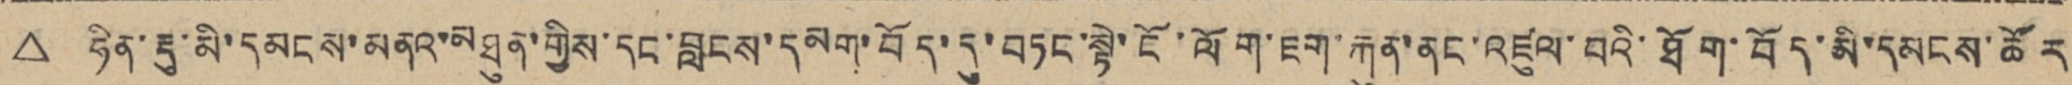△ ཧིན་རྡུ་མི་དམངས་མནའ་མཐུན་གྱིས་དང་བླངས་དམག་བོད་དུ་བཏང་སྟེ་ངོག་ལོག་ཇག་རྐུན་ནང་འཛུལ་པའི་ཐོག་བོད་མི་དམངས་ཚོར
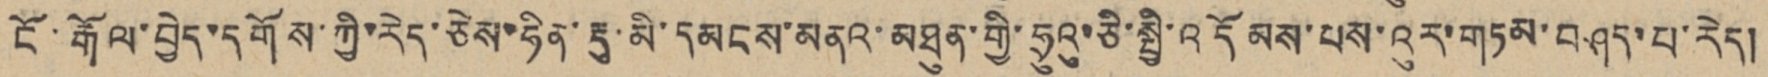ངོ་རྒོལ་བྱེད་དགོས་ཀྱི་རེད་ཅེས་ཧིན་རྡུ་མི་དམངས་མནའ་མཐུན་གྱི་ཧྲུའུ་ཅི་སྤྱི་འདོམས་པས་འུར་གཏམ་བཤད་པ་རེད།
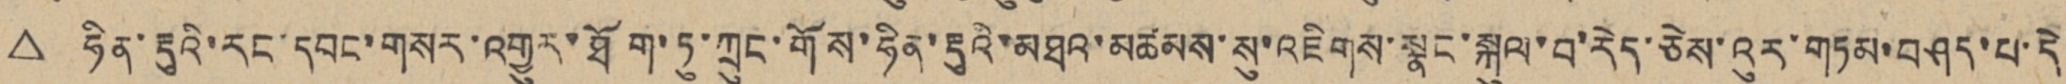△ ཧིན་རྡུའི་རང་དབང་གསར་འགྱུར་ཐོག་ཏུ་ཀྲུང་གོས་ཧིན་རྡུའི་མཐའ་མཚམས་སུ་འཇིགས་སྣང་སྐུལ་བ་རེད་ཅེས་འུར་གཏམ་བཤད་པ་དེ
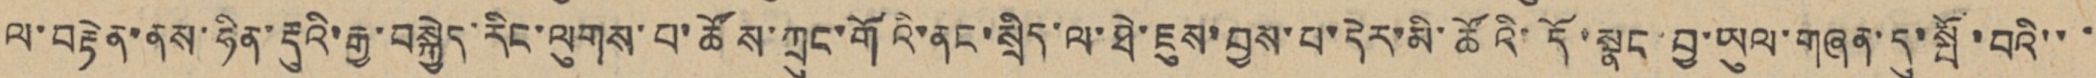ལ་བརྟེན་ནས་ཧིན་རྡུའི་རྒྱ་བསྐྱེད་རིང་ལུགས་པ་ཚོས་ཀྲུང་གོའི་ནང་སྲིད་ལ་ཐེ་ཇུས་བྱས་པ་དེར་མི་ཚོའི་དོ་སྣང་བྱ་ཡུལ་གཞན་དུ་སྤོ་བའི་་་
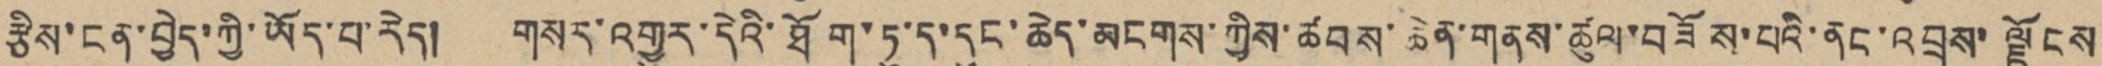རྩིས་ངན་བྱེད་ཀྱི་ཡོད་པ་རེད། གསར་འགྱུར་དེའི་ཐོག་ཏུ་ད་དུང་ཆེད་མངགས་ཀྱིས་ཚབས་ཆེན་གནས་ཚུལ་བཟོས་པའི་ནང་འབྲས་ལྗོངས
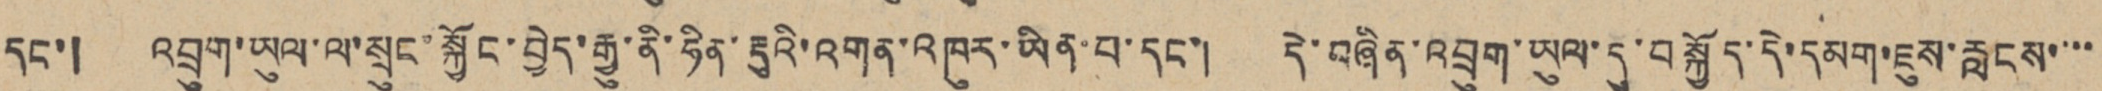དང་། འབྲུག་ཡུལ་ལ་སྲུང་སྐྱོང་བྱེད་རྒྱུ་ནི་ཧིན་རྡུའི་འགན་འཁུར་ཡིན་པ་དང་། དེ་བཞིན་འབྲུག་ཡུལ་དུ་བསྐྱོད་དེ་དམག་ཇུས་རླངས་་་་
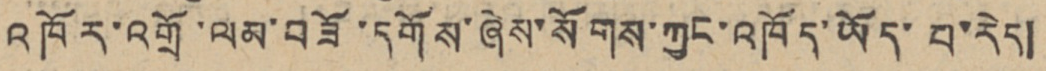འཁོར་འགྲོ་ལམ་བཟོ་དགོས་ཞེས་སོགས་ཀྱང་འཁོད་ཡོད་པ་རེད།
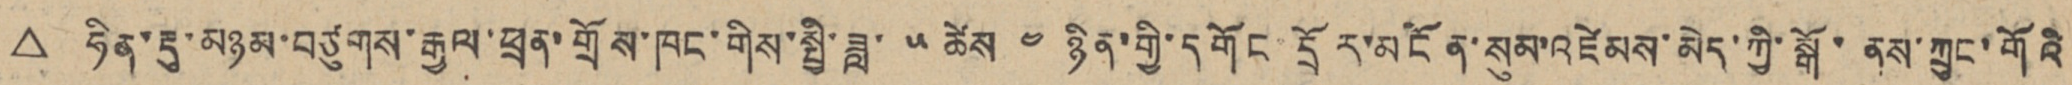△ ཧིན་རྡུ་མཉམ་བཙུགས་རྒྱལ་ཕྲན་གྲོས་ཁང་གིས་སྤྱི་ཟླ་ ༥ ཚེས ༤ ཉིན་གྱི་དགོང དྲོར་མངོན་སུམ་འཛེམས་མེད་ཀྱི་སྒོ་ནས་ཀྲུང་གོའི
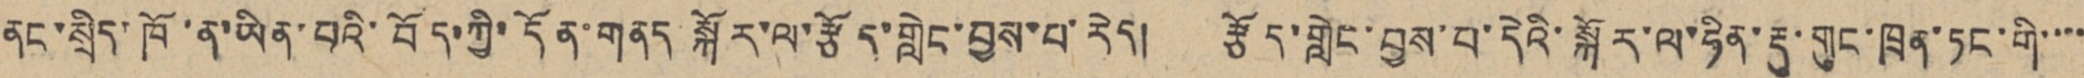ནང་སྲིད་ཁོ་ན་ཡིན་པའི་བོད་ཀྱི་དོན་གནད སྐོར་ལ་རྩོད་གླེང་བྱས་པ་རེད། རྩོད་གླེང་བྱས་པ་དེའི་སྐོར་ལ་ཧིན་རྡུ་གུང་ཁྲན་ཏང་གི་་་་
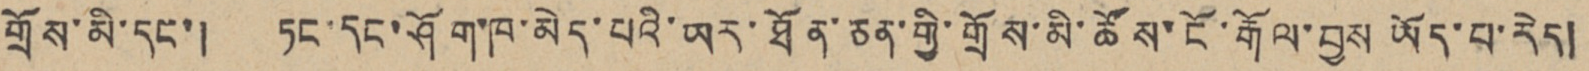གྲོས་མི་དང་། ཏང་དང་ཤོག་ཁ་མེད་པའི་ཡར་ཐོན་ཅན་གྱི་གྲོས་མི་ཚོས་ངོ་རྒོལ་བྱས ཡོད་པ་རེད།
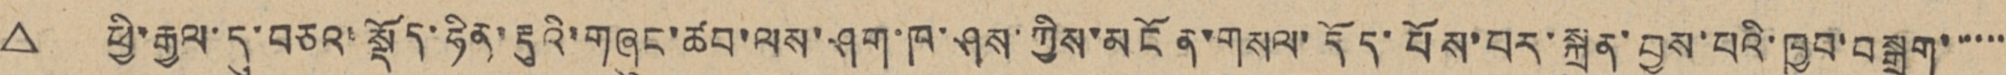△ ཕྱི་རྒཡལ་དུ་བཅའ་སྡོད་ཧིན་རྡུའི་གཞུང་ཚབ་ལས་ཤག་ཁ་ཤས་ཀྱིས་མངོན་གསལ་དོད་པོས་པར་སྐྲུན་བྱས་པའི་ཁྱབ་བསྒྲག་་་་་་་
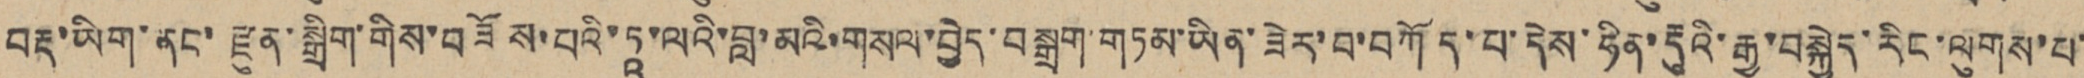བརྡ་ཡིག་ནང་རྫུན་སྒྲིག་གིས་བཟོས་པའི་ཏཱ་ལའི་བླ་མའི་གསལ་བྱེད་བསྒྲག་གཏམ་ཡིན་ཟེར་བ་བཀོད་པ་དེས་ཧིན་རྡུའི་རྒྱ་བསྐྱེད་རིང་ལུགས་པ་
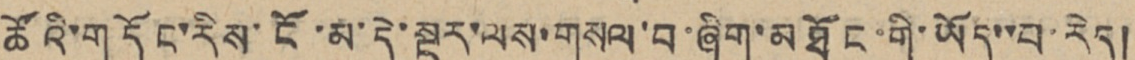ཚོའི་གདོང་རིས་ངོ་མ་དེ་སྔར་ལས་གསལ་བ་ཞིག་མཐོང་གི་ཡོད་་པ་རེད།
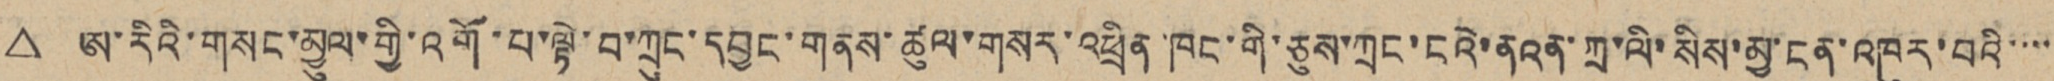△ ཨ་རིའི་གསང་མྱུལ་གྱི་འགོ་པ་ལྟེ་བ་ཀྲུང་དབྱང་གནས་ཚུལ་གསར་འཕྲིན་ཁང་གི་ཅུས་ཀྲང་ངའེ་ནའན་ཀྲ་ལི་སིས་མྱ་ངན་འཁུར་བའི་་་་
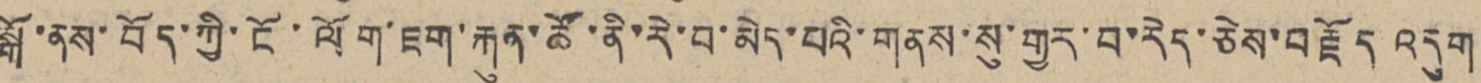སྒོ་ནས་བོད་ཀྱི་ངོ་ལོག་ཇག་རྐུན་ཚོ་ནི་རེ་བ་མེད་པའི་གནས་སུ་གྱར་བ་རེད་ཅེས་བརྗོད འདུག
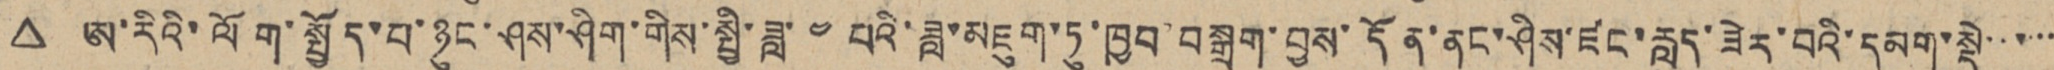△ ཨ་རིའི་ལོག་སྤྱོད་པ་ཉུང་ཤས་ཤིག་གིས་སྤྱི་ཟླ་ ༤ པའི་ཟླ་མཇུག་ཏུ་ཁྱབ་བསྒྲག་བྱས་དོན་ནང་ཤིས་ཛང་རླུད་ཟེར་བའི་དམག་སྡེ་་་་་་
